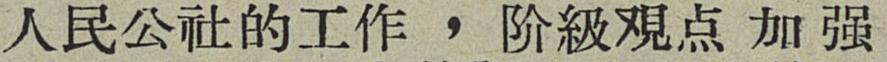人民公社的工作，阶級覌点加强
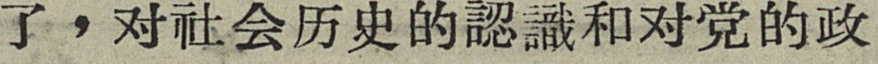了，对社会历史的認識和对党的政
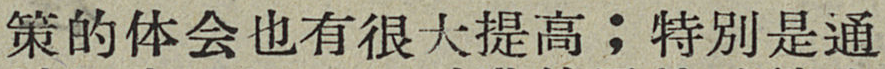策的体会也有很大提高；特别是通
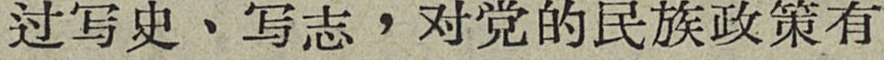过写史、写志，对党的民族政策有
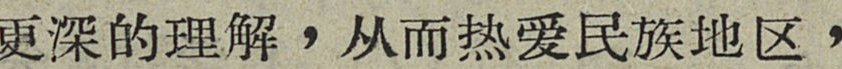更深的理解，从而热爱民族地区，
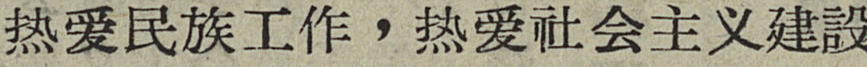热爱民族工作，热爱社会主义建設
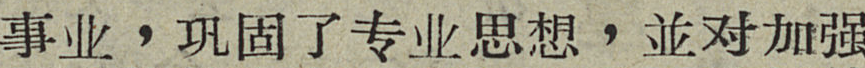事业，巩固了专业思想，並对加强
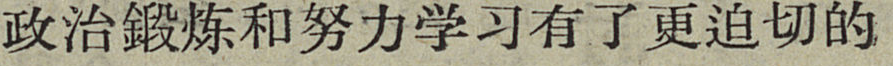政治鍛炼和努力学习有了更迫切的
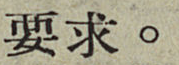要求。
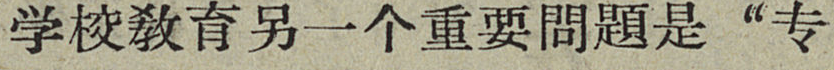学习敎育另一个重要問題是“专
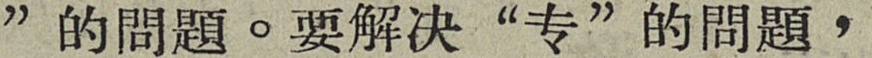”的問題。要解决“专”的問題，
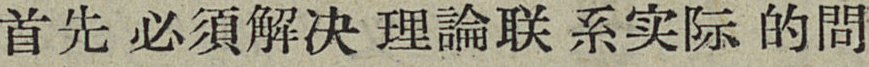首先必須解决理論联系实际的問
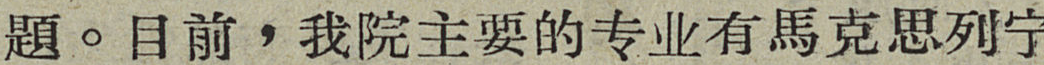題。目前，我院主要的专业有馬克思列宁
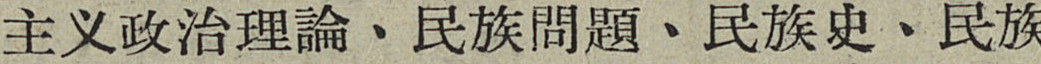主义政治理論、民族問題、民族史、民族
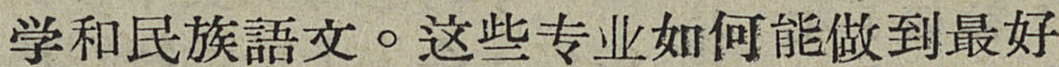学和民族語文。这些专业如何能做到最好
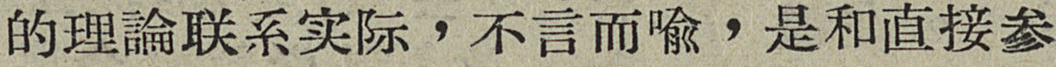的理論联系实际，不言而喻，是和直接参
